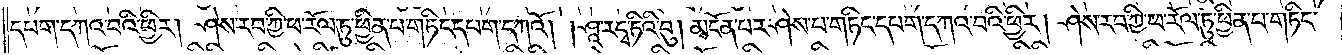དཔག་དཀའ་བའི་ཕྱིར། ཤེས་རབ་ཀྱི་ཕ་རོལ་ཏུ་ཕྱིན་པ་གཏིང་དཔག་དཀའོ། །ཤཱ་རདྭ་ཏིའི་བུ། མངོན་པར་ཤེས་པ་གཏིང་དཔག་དཀའ་བའི་ཕྱིར། ཤེས་རབ་ཀྱི་ཕ་རོལ་ཏུ་ཕྱིན་པ་གཏིང་
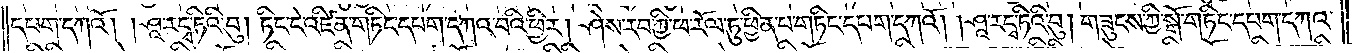དཔག་དཀའོ། །ཤཱ་རདྭ་ཏིའི་བུ། ཏིང་ངེ་འཛིན་གཏིང་དཔག་དཀའ་བའི་ཕྱིར། ཤེས་རབ་ཀྱི་ཕ་རོལ་ཏུ་ཕྱིན་པ་གཏིང་དཔག་དཀའོ། །ཤཱ་རདྭ་ཏིའི་བུ། གཟུངས་ཀྱི་སྒོ་གཏིང་དཔག་དཀའ་
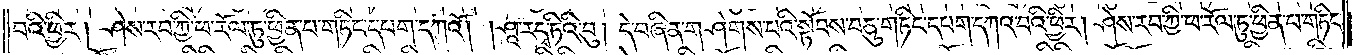བའི་ཕྱིར། ཤེས་རབ་ཀྱི་ཕ་རོལ་ཏུ་ཕྱིན་པ་གཏིང་དཔག་དཀའོ། །ཤཱ་རདྭ་ཏིའི་བུ། དེ་བཞིན་གཤེགས་པའི་སྟོབས་བཅུ་གཏིང་དཔག་དཀའ་ཕྱིར། ཤེས་རབ་ཀྱི་ཕ་རོལ་ཏུ་ཕྱིན་པ་གཏིང་
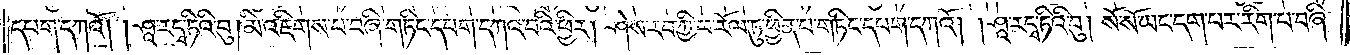དཔག་དཀའོ། །ཤཱ་རདྭ་ཏིའི་བུ། མི་འཇིགས་པ་བཞི་གཏིང་དཔག་དཀའ་བའི་ཕྱིར། ཤེས་རབ་ཀྱི་ཕ་རོལ་ཏུ་ཕྱིན་པ་གཏིང་དཔག་དཀའོ། །ཤཱ་རདྭ་ཏིའི་བུ། སོ་སོ་ཡང་དག་པར་རིག་པ་བཞི་
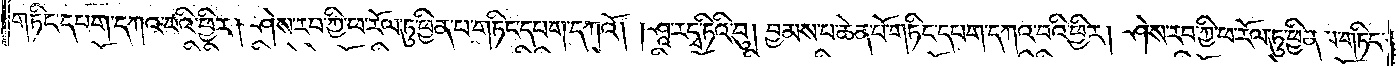གཏིང་དཔག་དཀའ་བའི་ཕྱིར། ཤེས་རབ་ཀྱི་ཕ་རོལ་ཏུ་ཕྱིན་པ་གཏིང་དཔག་དཀའོ། །ཤཱ་རདྭ་ཏིའི་བུ། བྱམས་པ་ཆེན་པོ་གཏིང་དཔག་དཀའ་བའི་ཕྱིར། ཤེས་རབ་ཀྱི་ཕ་རོལ་ཏུ་ཕྱིན་པ་གཏིང་
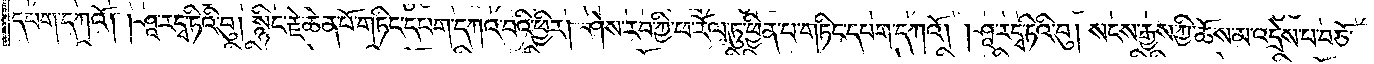དཔག་དཀའོ། །ཤཱ་རདྭ་ཏིའི་བུ། སྙིང་རྗེ་ཆེན་པོ་གཏིང་དཔག་དཀའ་བའི་ཕྱིར། ཤེས་རབ་ཀྱི་ཕ་རོལ་ཏུ་ཕྱིན་པ་གཏིང་དཔག་དཀའོ། །ཤཱ་རདྭ་ཏིའི་བུ། སངས་རྒྱས་ཀྱི་ཆོས་མ་འདྲེས་པ་བཅོ་
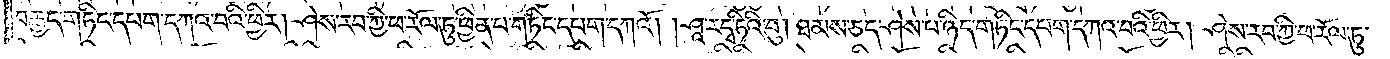བརྒྱད་གཏིང་དཔག་དཀའ་བའི་ཕྱིར། ཤེས་རབ་ཀྱི་ཕ་རོལ་ཏུ་ཕྱིན་པ་གཏིང་དཔག་དཀའོ། །ཤཱ་རདྭ་ཏིའི་བུ། ཐམས་ཅད་ཤེས་པ་ཉིད་གཏིང་དཔག་དཀའ་བའི་ཕྱིར། ཤེས་རབ་ཀྱི་ཕ་རོལ་ཏུ་
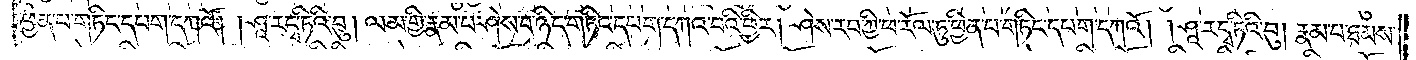ཕྱིན་པ་གཏིང་དཔག་དཀའོ། །ཤཱ་ར་དྭ་ཏིའི་བུ། ལམ་གྱི་རྣམ་པ་ཤེས་པ་ཉིད་གཏིང་དཔག་དཀའ་བའི་ཕྱིར། ཤེས་རབ་ཀྱི་ཕ་རོལ་ཏུ་ཕྱིན་པ་གཏིང་དཔག་དཀའོ། །ཤཱ་རདྭ་ཏིའི་བུ། རྣམ་པ་ཐམས་
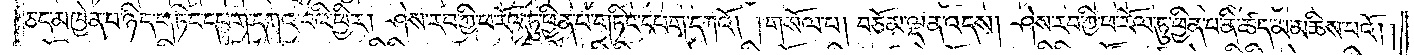ཅད་མཁྱེན་པ་ཉིད་གཏིང་དཔག་དཀའ་བའི་ཕྱིར། ཤེས་རབ་ཀྱི་ཕ་རོལ་ཏུ་ཕྱིན་པ་གཏིང་དཔག་དཀའོ། །གསོལ་པ། བཅོམ་ལྡན་འདས། ཤེས་རབ་ཀྱི་ཕ་རོལ་ཏུ་ཕྱིན་པ་ནི་ཚད་མ་མཆིས་པའོ། །
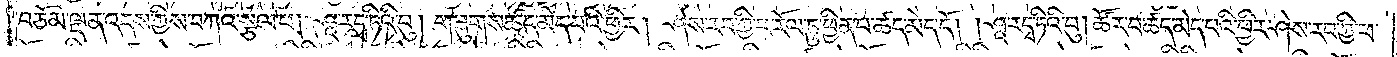བཅོམ་ལྡན་འདས་ཀྱིས་བཀའ་སྩལ་པ། ཤཱ་རདྭ་ཏིའི་བུ། གཟུགས་ཚད་མེད་པའི་ཕྱིར། ཤེས་རབ་ཀྱི་ཕ་རོལ་ཏུ་ཕྱིན་པ་ཚད་མེད་དོ། །ཤཱ་རདྭ་ཏིའི་བུ། ཚོར་བ་ཚད་མེད་པའི་ཕྱིར་ཤེས་རབ་ཀྱི་ཕ་
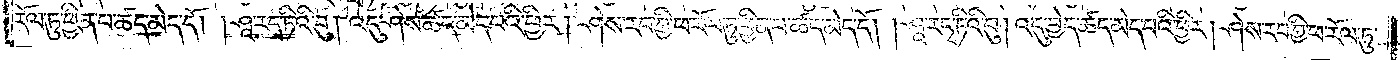རོལ་ཏུ་ཕྱིན་པ་ཚད་མེད་དོ། །ཤཱ་རདྭ་ཏིའི་བུ། འདུ་ཤེས་ཚད་མེད་པའི་ཕྱིར། ཤེས་རབ་ཀྱི་ཕ་རོལ་ཏུ་ཕྱིན་པ་ཚད་མེད་དོ། །ཤཱ་རདྭ་ཏིའི་བུ། འདུ་བྱེད་ཚད་མེད་པའི་ཕྱིར། ཤེས་རབ་ཀྱི་ཕ་རོལ་ཏུ་
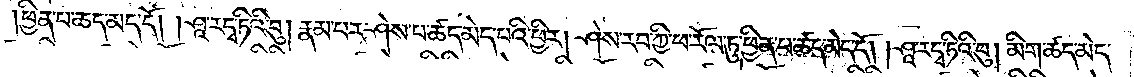ཕྱིན་པ་ཚད་མེད་དོ། །ཤཱ་ར་དྭ་ཏིའི་བུ། རྣམ་པར་ཤེས་པ་ཚད་མེད་པའི་ཕྱིར། ཤེས་རབ་ཀྱི་ཕ་རོལ་ཏུ་ཕྱིན་པ་ཚད་མེད་དོ། །ཤཱ་རདྭ་ཏིའི་བུ། མིག་ཚད་མེད་
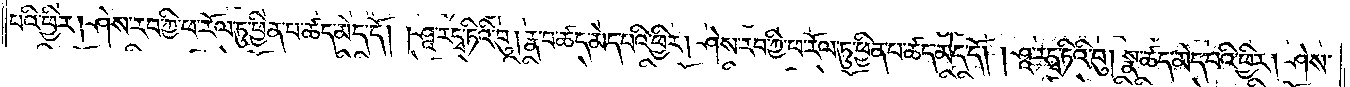པའི་ཕྱིར། ཤེས་རབ་ཀྱི་ཕ་རོལ་ཏུ་ཕྱིན་པ་ཚད་མེད་དོ། །ཤཱ་རདྭ་ཏིའི་བུ། རྣ་བ་ཚད་མེད་པའི་ཕྱིར། ཤེས་རབ་ཀྱི་ཕ་རོལ་ཏུ་ཕྱིན་པ་ཚད་མེད་དོ། །ཤཱ་རདྭ་ཏིའི་བུ། སྣ་ཚད་མེད་པའི་ཕྱིར། ཤེས་
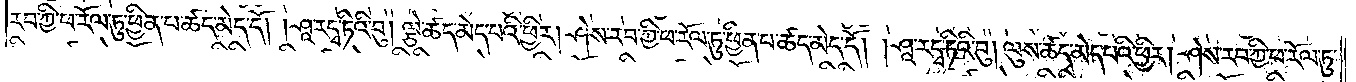རབ་ཀྱི་ཕ་རོལ་ཏུ་ཕྱིན་པ་ཚད་མེད་དོ། །ཤཱ་རདྭ་ཏིའི་བུ། ལྕེ་ཚད་མེད་པའི་ཕྱིར། ཤེས་རབ་ཀྱི་ཕ་རོལ་ཏུ་ཕྱིན་པ་ཚད་མེད་དོ། །ཤཱ་རདྭ་ཏིའི་བུ། ལུས་ཚད་མེད་པའི་ཕྱིར། ཤེས་རབ་ཀྱི་ཕ་རོལ་ཏུ་
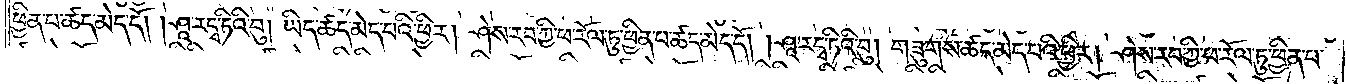ཕྱིན་པ་ཚད་མེད་དོ། །ཤཱ་རདྭ་ཏིའི་བུ། ཡིད་ཚད་མེད་པའི་ཕྱིར། ཤེས་རབ་ཀྱི་ཕ་རོལ་ཏུ་ཕྱིན་པ་ཚད་མེད་དོ། །ཤཱ་རདྭ་ཏིའི་བུ། གཟུགས་ཚད་མེད་པའི་ཕྱིར། ཤེས་རབ་ཀྱི་ཕ་རོལ་ཏུ་ཕྱིན་པ་
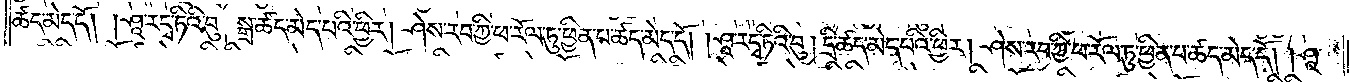ཚད་མེད་དོ། །ཤཱ་རདྭ་ཏིའི་བུ། སྒྲ་ཚད་མེད་པའི་ཕྱིར། ཤེས་རབ་ཀྱི་ཕ་རོལ་ཏུ་ཕྱིན་པ་ཚད་མེད་དོ། །ཤཱ་རདྭ་ཏིའི་བུ། དྲི་ཚད་མེད་པའི་ཕྱིར། ཤེས་རབ་ཀྱི་ཕ་རོལ་ཏུ་ཕྱིན་པ་ཚད་མེད་དོ། །ཤཱ་
